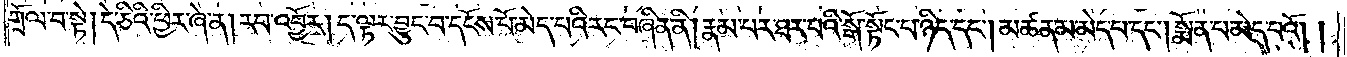གྲོལ་བ་སྟེ། དེ་ཅིའི་ཕྱིར་ཞེ་ན། རབ་འབྱོར། ད་ལྟར་བྱུང་བ་དངོས་པོ་མེད་པའི་རང་བཞིན་ནི། རྣམ་པར་ཐར་པའི་སྒོ་སྟོང་པ་ཉིད་དང༌། མཚན་མ་མེད་པ་དང༌། སྨོན་པ་མེད་པའོ། །
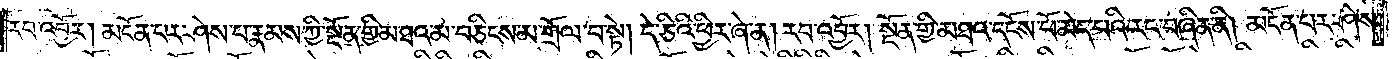རབ་འབྱོར། མངོན་པར་ཤེས་པ་རྣམས་ཀྱི་སྔོན་གྱི་མཐའ་མ་བཅིངས་མ་གྲོལ་བ་སྟེ། དེ་ཅིའི་ཕྱིར་ཞེ་ན། རབ་འབྱོར། སྔོན་གྱི་མཐའ་དངོས་པོ་མེད་པའི་རང་བཞིན་ནི། མངོན་པར་ཤེས་
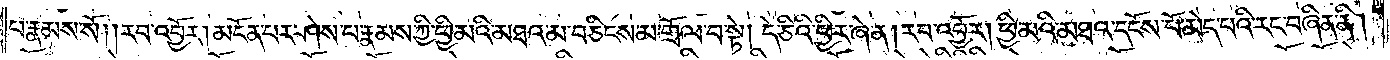པ་རྣམས་སོ། །རབ་འབྱོར། མངོན་པར་ཤེས་པ་རྣམས་ཀྱི་ཕྱི་མའི་མཐའ་མ་བཅིངས་མ་གྲོལ་བ་སྟེ། དེ་ཅིའི་ཕྱིར་ཞེ་ན། རབ་འབྱོར། ཕྱི་མའི་མཐའ་དངོས་པོ་མེད་པའི་རང་བཞིན་ནི།
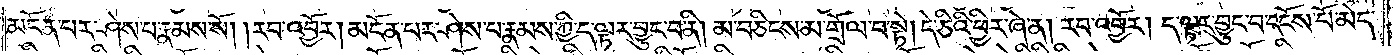མངོན་པར་ཤེས་པ་རྣམས་སོ། །རབ་འབྱོར། མངོན་པར་ཤེས་པ་རྣམས་ཀྱི་ད་ལྟར་བྱུང་བ་ནི། མ་བཅིངས་མ་གྲོལ་བ་སྟེ། དེ་ཅིའི་ཕྱིར་ཞེ་ན། རབ་འབྱོར། ད་ལྟར་བྱུང་བ་དངོས་པོ་མེད་
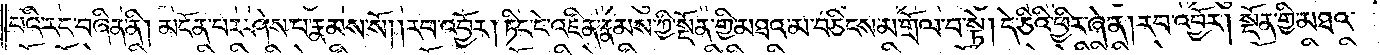པའི་རང་བཞིན་ནི། མངོན་པར་ཤེས་པ་རྣམས་སོ། །རབ་འབྱོར། ཏིང་ངེ་འཛིན་རྣམས་ཀྱི་སྔོན་གྱི་མཐའ་མ་བཅིངས་མ་གྲོལ་བ་སྟེ། དེ་ཅིའི་ཕྱིར་ཞེ་ན། རབ་འབྱོར། སྔོན་གྱི་མཐའ་
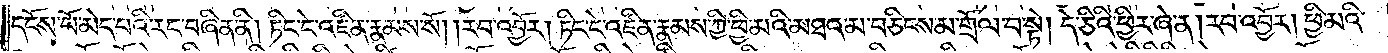དངོས་པོ་མེད་པའི་རང་བཞིན་ནི། ཏིང་ངེ་འཛིན་རྣམས་སོ། །རབ་འབྱོར། ཏིང་ངེ་འཛིན་རྣམས་ཀྱི་ཕྱི་མའི་མཐའ་མ་བཅིངས་མ་གྲོལ་བ་སྟེ། དེ་ཅིའི་ཕྱིར་ཞེ་ན། རབ་འབྱོར། ཕྱི་མའི་
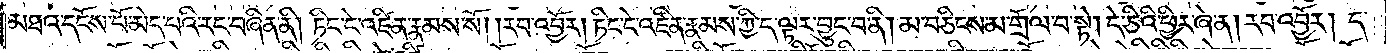མཐའ་དངོས་པོ་མེད་པའི་རང་བཞིན་ནི། ཏིང་ངེ་འཛིན་རྣམས་སོ། །རབ་འབྱོར། ཏིང་ངེ་འཛིན་རྣམས་ཀྱི་ད་ལྟར་བྱུང་བ་ནི། མ་བཅིངས་མ་གྲོལ་བ་སྟེ། དེ་ཅིའི་ཕྱིར་ཞེ་ན། རབ་འབྱོར། ད་
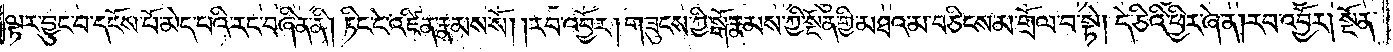ལྟར་བྱུང་བ་དངོས་པོ་མེད་པའི་རང་བཞིན་ནི། ཏིང་ངེ་འཛིན་རྣམས་སོ། །རབ་འབྱོར། གཟུངས་ཀྱི་སྒོ་རྣམས་ཀྱི་སྔོན་གྱི་མཐའ་མ་བཅིངས་མ་གྲོལ་བ་སྟེ། དེ་ཅིའི་ཕྱིར་ཞེ་ན། རབ་འབྱོར། སྔོན་
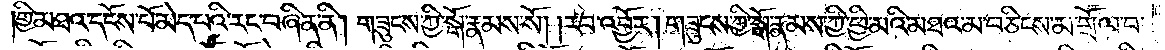གྱི་མཐའ་དངོས་པོ་མེད་པའི་རང་བཞིན་ནི། གཟུངས་ཀྱི་སྒོ་རྣམས་སོ། །རབ་འབྱོར། གཟུངས་ཀྱི་སྒོ་རྣམས་ཀྱི་ཕྱི་མའི་མཐའ་མ་བཅིངས་མ་གྲོལ་བ་
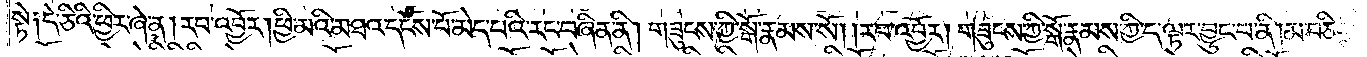སྟེ༑ དེ་ཅིའི་ཕྱིར་ཞེ་ན། རབ་འབྱོར། ཕྱི་མའི་མཐའ་དངོས་པོ་མེད་པའི་རང་བཞིན་ནི། གཟུངས་ཀྱི་སྒོ་རྣམས་སོ། །རབ་འབྱོར། གཟུངས་ཀྱི་སྒོ་རྣམས་ཀྱི་ད་ལྟར་བྱུང་བ་ནི། མ་བཅིངས་
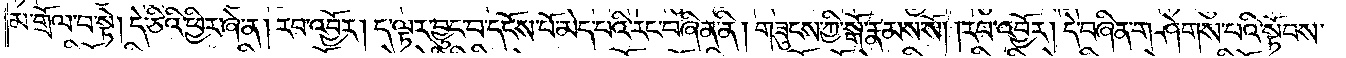མ་གྲོལ་བ་སྟེ། དེ་ཅིའི་ཕྱིར་ཞེ་ན། རབ་འབྱོར། ད་ལྟར་བྱུང་བ་དངོས་པོ་མེད་པའི་རང་བཞིན་ནི། གཟུངས་ཀྱི་སྒོ་རྣམས་སོ། །རབ་འབྱོར། དེ་བཞིན་གཤེགས་པའི་སྟོབས་
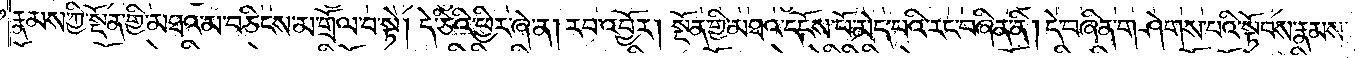རྣམས་ཀྱི་སྔོན་གྱི་མཐའ་མ་བཅིངས་མ་གྲོལ་བ་སྟེ། དེ་ཅིའི་ཕྱིར་ཞེ་ན། རབ་འབྱོར། སྔོན་གྱི་མཐའ་དངོས་པོ་མེད་པའི་རང་བཞིན་ནི། དེ་བཞིན་གཤེགས་པའི་སྟོབས་རྣམས་
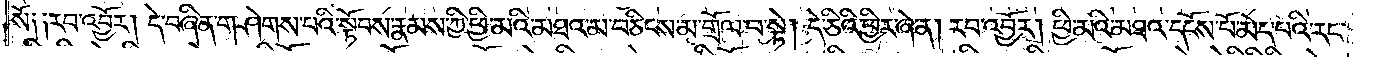སོ༑ ༑རབ་འབྱོར། དེ་བཞིན་གཤེགས་པའི་སྟོབས་རྣམས་ཀྱི་ཕྱི་མའི་མཐའ་མ་བཅིངས་མ་གྲོལ་བ་སྟེ། དེ་ཅིའི་ཕྱིར་ཞེ་ན། རབ་འབྱོར། ཕྱི་མའི་མཐའ་དངོས་པོ་མེད་པའི་རང་
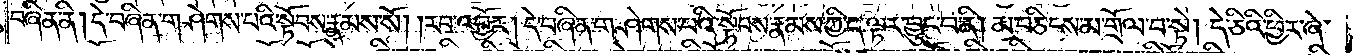བཞིན་ནི། དེ་བཞིན་གཤེགས་པའི་སྟོབས་རྣམས་སོ། །རབ་འབྱོར། དེ་བཞིན་གཤེགས་པའི་སྟོབས་རྣམས་ཀྱི་ད་ལྟར་བྱུང་བ་ནི། མ་བཅིངས་མ་གྲོལ་བ་སྟེ། དེ་ཅིའི་ཕྱིར་ཞེ་
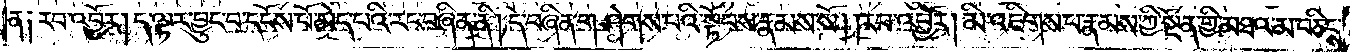ན༑ རབ་འབྱོར། ད་ལྟར་བྱུང་བ་དངོས་པོ་མེད་པའི་རང་བཞིན་ནི། དེ་བཞིན་གཤེགས་པའི་སྟོབས་རྣམས་སོ། །རབ་འབྱོར། མི་འཇིགས་པ་རྣམས་ཀྱི་སྔོན་གྱི་མཐའ་མ་བཅིངས་
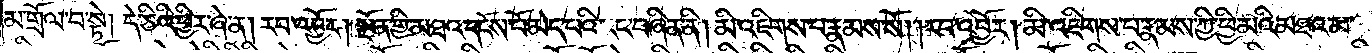མ་གྲོལ་བ་སྟེ། དེ་ཅིའི་ཕྱིར་ཞེ་ན། རབ་འབྱོར། སྔོན་གྱི་མཐའ་དངོས་པོ་མེད་པའི་རང་བཞིན་ནི། མི་འཇིགས་པ་རྣམས་སོ། །རབ་འབྱོར། མི་འཇིགས་པ་རྣམས་ཀྱི་ཕྱི་མའི་མཐའ་མ་
